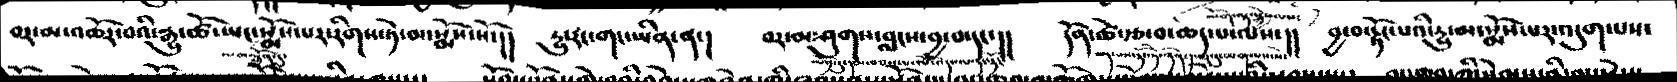བར་མ་འཆོར་བའི་རྒྱུ་ཚོ་ཡང་སྨོས་པར་རིགས་ཏེ་མ་སྨོས་སོ་།།   རྱུ་རང་གང་ཡིན་ན་།    བར་མ་ཤུགས་བླངས་བྱ་བ་དང་།།    དོན་ཚེ་རྩ་བ་ཆད་པ་ལས་།།   བྱ་བ་རྟོང་པའི་རྱུ་མ་སྨོས་པར་འདུག་པས་
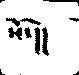སོ་།།
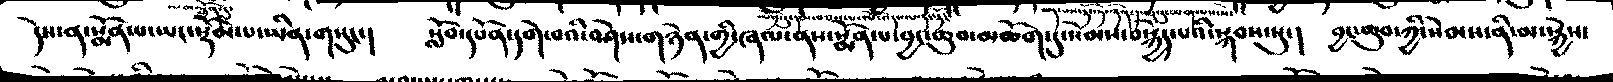དེས་ན་སྨོན་པ་ཡང་སྡོམ་པ་ཡིན་གསུང་།    སློབ་དཔོན་དགེ་བའི་བཤེས་གཉེན་གྱི་ཞལ་ནས་སྨོན་པ་བྱང་ཆུབ་མཆོག་དུ་སེམས་བསྐྱེད་པའི་སྐབས་སུ་།   བྱང་ཆུབ་ཀྱི་སེམས་ནི་མ་སྐྱེས་
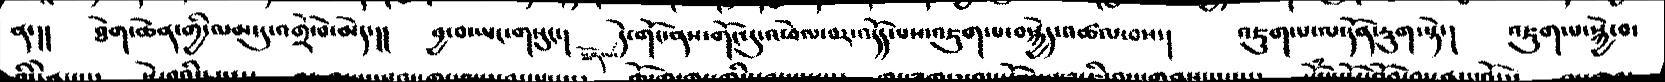ན་།།    ཐེག་ཆེན་གྱི་ལམ་དུ་འགྲོ་བ་མེད་།།   བྱ་བ་ཡང་གསུང་།   དེ་གོང་ནས་གོང་དུ་འཕེལ་བར་འདོད་པས་འཇུག་པ་བསྐྱེད་འཚལ་བས་།    འཇུག་པ་ལ་དོན་རྟུག་སྟེ་།   འཇུག་པ་སྐྱེ་བ་
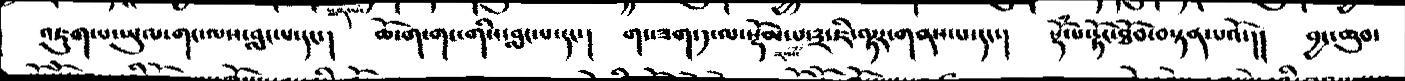འཇུག་པ་ཡུལ་གང་ལས་བླང་པ་དང་།  ཆོ་ག་གང་གིས་བླང་པ་དང་།  གང་ཟག་༡་ལ་སྡོམ་པ་༣་ཇི་ལྟར་གནས་པ་དང་།  སྡོཾ་པ་རྟོང་ཐོབ་བསྟན་པའོ་།།  བྱང་ཆུབ་
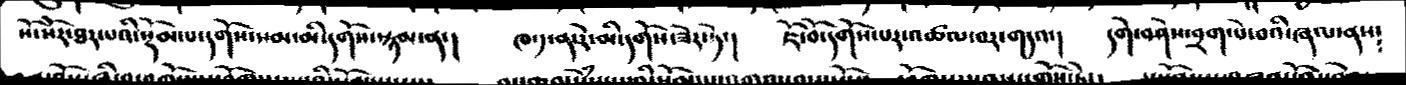སོ་སོར་ཐར་པའི་སྡོམ་པ་དགོས་སམ་མི་དགོས་སྙམ་ན་།   ཁ་༡་ན་རེ་མི་དགོས་ཟེར་ཏེ་།   ཇོ་བོ་དགོས་པར་འཚལ་བར་གདའ་།  དགེ་བཤེས་བྲག་པེ་བའི་ཞལ་ནས༴
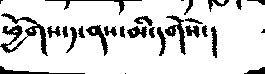ཕྱོགས་༡་ནས་མི་དགོས་།
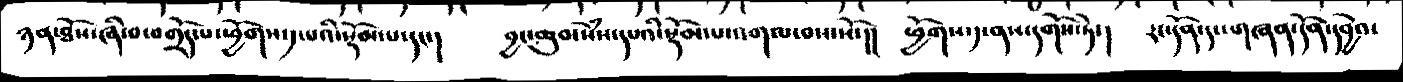ཉན་ཐོས་ཞི་བ་བགྲོད་པ་ཕྱོགས་༡་པའི་སྡོམ་པ་དང་།    བྱང་ཆུབ་སེཾས་དཔའི་སྡོམ་པ་འགལ་བས་སོ་།།   ཕྱོགས་༡་ནས་དགོས་ཏེ་།   རང་དོན་དང་གཞན་དོན་དབྱེའ་
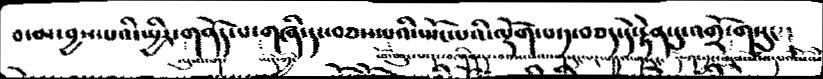བ་མ་བྱས་པའི་སྤྱིར་གནོད་པ་གཞི་དང་བཅས་པའི་སྤོང་པའི་ལྡོག་པ་༡་བཅད་དེ་རྟེན་དུ་འགྲོ་གསུང་།
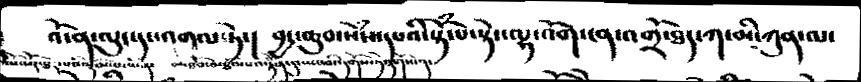འོ་ན་ལུང་དང་འགལ་ཏེ་།      བྱང་ཆབ་སེཾས་དཔའི་སྡོཾ་པ་སྟེ་ལྷ་འོག་ངན་འགྲོ་ཐད་ཀ་མི་ཀུན་ལ་
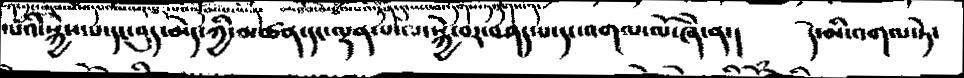་པའི་སྐྱེས་པ་དངབུད་མེད་ཀྱི་མཚན་དང་ལྡན་པ་ལ་སྐྱེ་བར་བཤད་པ་དང་འགལ་ལོ་ཞེ་ན་།   དེ་མི་འགལ་ཏེ་
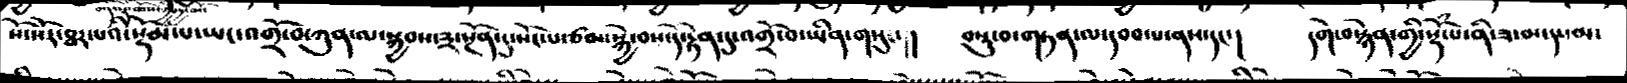སོ་སོར་ཐར་པའི་སྡོམ་པ་ཡང་འགྲོ་བ་ཀུན་ལ་སྐྱབས་༣་སྔོན་དུ་སོང་པ་ཙམ་སྐྱེ་བས་དེ་རྟེན་དུ་འགྲོ་བ་ཡིན་གསུང་།།   བསྡུ་བ་གཏན་ལ་དབབ་པ་ནས་དང་།   དགེ་བསྙེན་གྱི་སྡོཾ་པ་ནི་ཟ་མ་དང་མ་
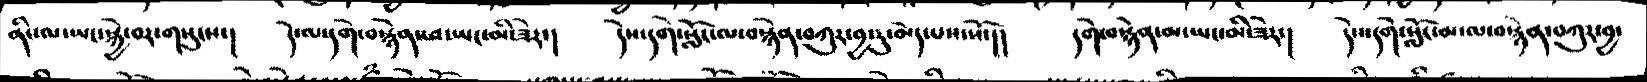ནིང་ལ་ཡང་སྐྱེ་བར་གསུངས་།  དེ་ལ་དགེ་བསྙེན་ཕ་ཡང་མི་ཟེར་།   དེས་དགེ་སློང་ལ་བསྙེན་བཀུར་བྱ་རུ་མེད་པས་སོ་།།  དགེ་བསྙེན་མ་ཡང་མི་ཟེར་།   དེས་དགེ་སློང་མ་ལ་བསྙེན་བཀུར་བྱ་
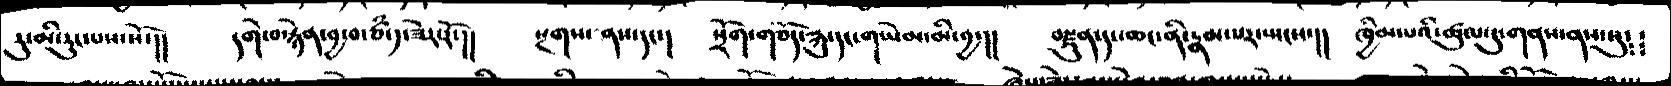རུ་མ་རུང་པས་སོ་།།  དགེ་བསྙེན་བྱ་བ་ཙཾ་༡་ཟེར་རོ་།།  སྔགས་ནས་དང་།   སྲོག་གཅོད་རྐུ་དང་གཡེམ་མི་བྱང་།།   བརྫུན་དང་ཆང་ན་རྣམ་པར་སྤངས་།།  ཁྱིམ་པའི་ཚུལ་དུ་གནས་ནས་སུ༴༴
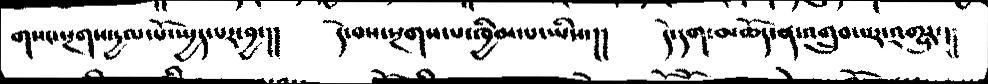གསང་སྔགས་དྱལ་པོ་སྤྱད་པར་བྱ་།།   དེ་བས་སྔགས་པ་ཁྱིམ་པ་ཡིས་།།   དེ་དག་མཆོད་ན་འགྲུབ་པར་འགྱུར་།།
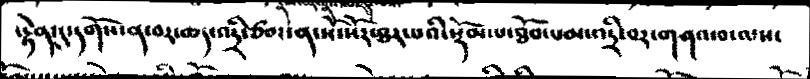་རྟེན་དུ་དགོས་ན་བར་ཆད་འདྲི་ཙམ་ན་སོ་སོར་ཐར་པའི་སྡོམ་པ་ཐོབ་འམ་འདྲི་བར་གཤའ་བ་ལས་
